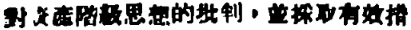對資產階級思想的批判，並採取有效措
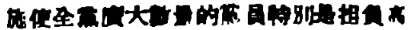施使全黨廣大數量的黨員特別是担負高
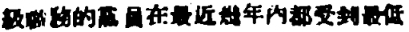級職務的黨員在最近幾年內都受到最低
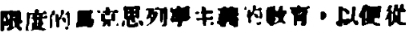限度的馬克思列寧主義的敎育，以便從
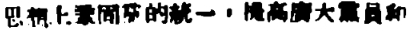思想上鞏固黨的統一，提高廣大黨員和
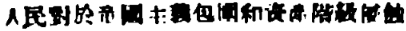人民對於帝國主義包圍和資產階級侵蝕
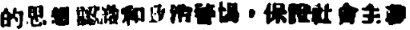的思想認識和政治警惕，保證社會主義
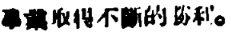事業取得不斷的勝利。
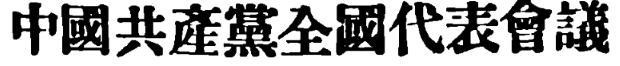中國共產黨全國代表會議
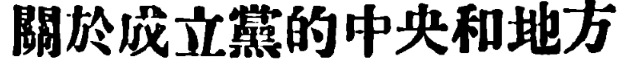關於成立黨的中央和地方
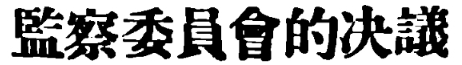監察委員會的決議
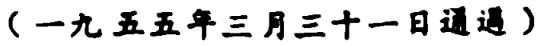（一九五五年三月三十一日通過）
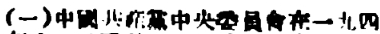（一）中國共產黨中央委員會在一九四
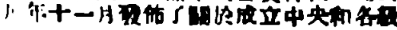九年十一月發佈了關於成立中央和各級
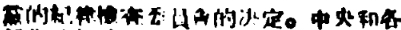黨的紀律檢查委員會的決定。中央和各
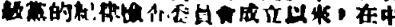級黨的紀律檢查委員會成立以來，在中
